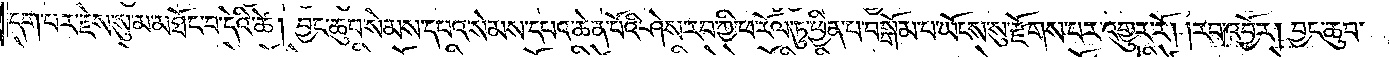དག་པར་རྗེས་སུ་མ་མཐོང་བ་དེའི་ཚེ། བྱང་ཆུབ་སེམས་དཔའ་སེམས་དཔའ་ཆེན་པོའི་ཤེས་རབ་ཀྱི་ཕ་རོལ་ཏུ་ཕྱིན་པ་བསྒོམ་པ་ཡོངས་སུ་རྫོགས་པར་འགྱུར་རོ། །རབ་འབྱོར། བྱང་ཆུབ་
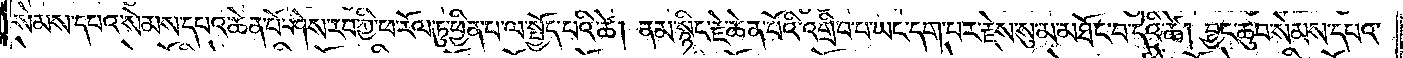སེམས་དཔའ་སེམས་དཔའ་ཆེན་པོ་ཤེས་རབ་ཀྱི་ཕ་རོལ་ཏུ་ཕྱིན་པ་ལ་སྤྱོད་པའི་ཚེ། ནམ་སྙིང་རྗེ་ཆེན་པོའི་འགྲིབ་པ་ཡང་དག་པར་རྗེས་སུ་མ་མཐོང་བ་དེའི་ཚེ། བྱང་ཆུབ་སེམས་དཔའ་
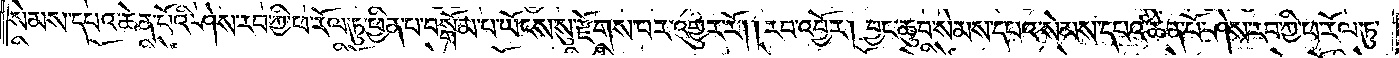སེམས་དཔའ་ཆེན་པོའི་ཤེས་རབ་ཀྱི་ཕ་རོལ་ཏུ་ཕྱིན་པ་བསྒོམ་པ་ཡོངས་སུ་རྫོགས་པར་འགྱུར་རོ། །རབ་འབྱོར། བྱང་ཆུབ་སེམས་དཔའ་སེམས་དཔའ་ཆེན་པོ་ཤེས་རབ་ཀྱི་ཕ་རོལ་ཏུ་
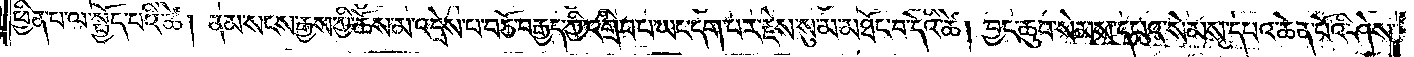ཕྱིན་པ་ལ་སྤྱོད་པའི་ཚེ། ནམ་སངས་རྒྱས་ཀྱི་ཆོས་མ་འདྲེས་པ་བཅོ་བརྒྱད་ཀྱི་འགྲིབ་པ་ཡང་དག་པར་རྗེས་སུ་མ་མཐོང་བ་དེའི་ཚེ། བྱང་ཆུབ་སེམས་དཔའ་སེམས་དཔའ་ཆེན་པོའི་ཤེས་
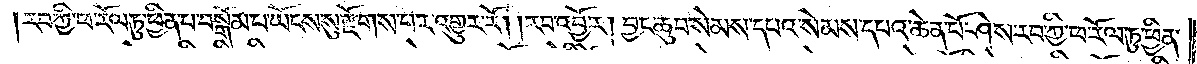རབ་ཀྱི་ཕ་རོལ་ཏུ་ཕྱིན་པ་བསྒོམ་པ་ཡོངས་སུ་རྫོགས་པར་འགྱུར་རོ། །རབ་འབྱོར། བྱང་ཆུབ་སེམས་དཔའ་སེམས་དཔའ་ཆེན་པོ་ཤེས་རབ་ཀྱི་ཕ་རོལ་ཏུ་ཕྱིན་
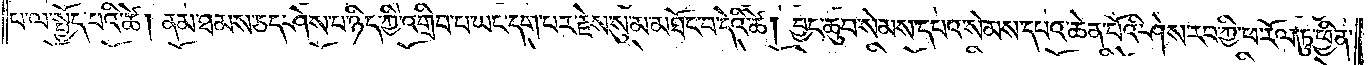པ་ལ་སྤྱོད་པའི་ཚེ། ནམ་ཐམས་ཅད་ཤེས་པ་ཉིད་ཀྱི་འགྲིབ་པ་ཡང་དག་པར་རྗེས་སུ་མ་མཐོང་བ་དེའི་ཚེ། བྱང་ཆུབ་སེམས་དཔའ་སེམས་དཔའ་ཆེན་པོའི་ཤེས་རབ་ཀྱི་ཕ་རོལ་ཏུ་ཕྱིན་
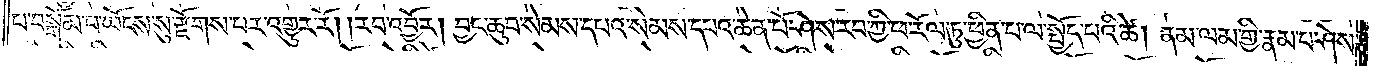པ་བསྒོམ་པ་ཡོངས་སུ་རྫོགས་པར་འགྱུར་རོ། །རབ་འབྱོར། བྱང་ཆུབ་སེམས་དཔའ་སེམས་དཔའ་ཆེན་པོ་ཤེས་རབ་ཀྱི་ཕ་རོལ་ཏུ་ཕྱིན་པ་ལ་སྤྱོད་པའི་ཚེ། ནམ་ལམ་གྱི་རྣམ་པ་ཤེས་
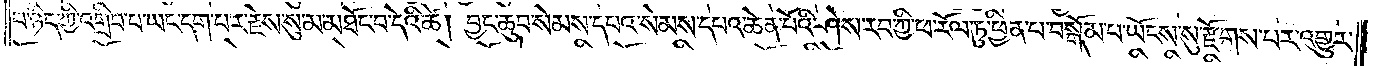པ་ཉིད་ཀྱི་འགྲིབ་པ་ཡང་དག་པར་རྗེས་སུ་མ་མཐོང་བ་དེའི་ཚེ། བྱང་ཆུབ་སེམས་དཔའ་སེམས་དཔའ་ཆེན་པོའི་ཤེས་རབ་ཀྱི་ཕ་རོལ་ཏུ་ཕྱིན་པ་བསྒོམ་པ་ཡོངས་སུ་རྫོགས་པར་འགྱུར་
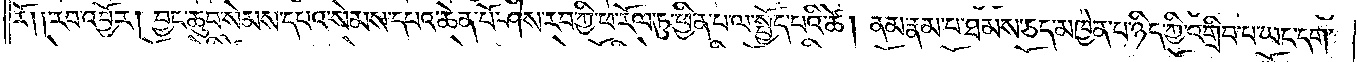རོ། །རབ་འབྱོར། བྱང་ཆུབ་སེམས་དཔའ་སེམས་དཔའ་ཆེན་པོ་ཤེས་རབ་ཀྱི་ཕ་རོལ་ཏུ་ཕྱིན་པ་ལ་སྤྱོད་པའི་ཚེ། ནམ་རྣམ་པ་ཐམས་ཅད་མཁྱེན་པ་ཉིད་ཀྱི་འགྲིབ་པ་ཡང་དག་
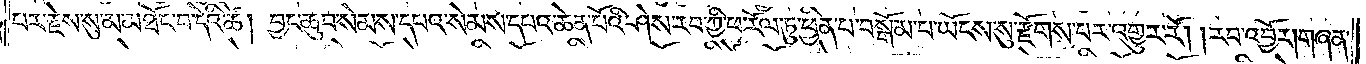པར་རྗེས་སུ་མ་མཐོང་བ་དེའི་ཚེ། བྱང་ཆུབ་སེམས་དཔའ་སེམས་དཔའ་ཆེན་པོའི་ཤེས་རབ་ཀྱི་ཕ་རོལ་ཏུ་ཕྱིན་པ་བསྒོམ་པ་ཡོངས་སུ་རྫོགས་པར་འགྱུར་རོ། །རབ་འབྱོར། གཞན་
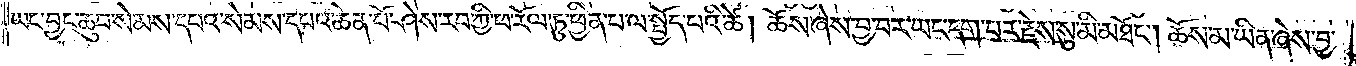ཡང་བྱང་ཆུབ་སེམས་དཔའ་སེམས་དཔའ་ཆེན་པོ་ཤེས་རབ་ཀྱི་ཕ་རོལ་ཏུ་ཕྱིན་པ་ལ་སྤྱོད་པའི་ཚེ། ཆོས་ཞེས་བྱ་བར་ཡང་དག་པར་རྗེས་སུ་མི་མཐོང༌། ཆོས་མ་ཡིན་ཞེས་བྱ་
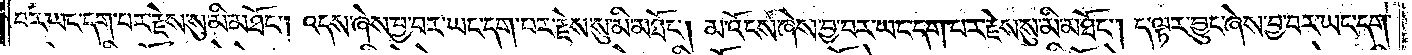བར་ཡང་དག་པར་རྗེས་སུ་མི་མཐོང༌། འདས་ཞེས་བྱ་བར་ཡང་དག་པར་རྗེས་སུ་མི་མཐོང༌། མ་འོངས་ཞེས་བྱ་བར་ཡང་དག་པར་རྗེས་སུ་མི་མཐོང༌། ད་ལྟར་བྱུང་ཞེས་བྱ་བར་ཡང་དག་
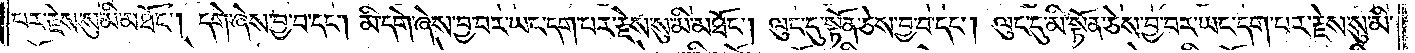པར་རྗེས་སུ་མི་མཐོང༌། དགེ་ཞེས་བྱ་བ་དང༌། མི་དགེ་ཞེས་བྱ་བར་ཡང་དག་པར་རྗེས་སུ་མི་མཐོང༌། ལུང་དུ་སྟོན་ཅེས་བྱ་བ་དང༌། ལུང་དུ་མི་སྟོན་ཅེས་བྱ་བར་ཡང་དག་པར་རྗེས་སུ་མི་
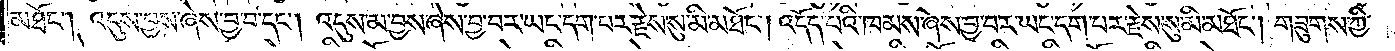མཐོང༌། འདུས་བྱས་ཞེས་བྱ་བ་དང༌། འདུས་མ་བྱས་ཞེས་བྱ་བར་ཡང་དག་པར་རྗེས་སུ་མི་མཐོང༌། འདོད་པའི་ཁམས་ཞེས་བྱ་བར་ཡང་དག་པར་རྗེས་སུ་མི་མཐོང༌། གཟུགས་ཀྱི་
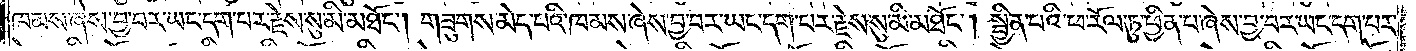ཁམས་ཞེས་བྱ་བར་ཡང་དག་པར་རྗེས་སུ་མི་མཐོང༌། གཟུགས་མེད་པའི་ཁམས་ཞེས་བྱ་བར་ཡང་དག་པར་རྗེས་སུ་མི་མཐོང༌། སྦྱིན་པའི་ཕ་རོལ་ཏུ་ཕྱིན་པ་ཞེས་བྱ་བར་ཡང་དག་པར་
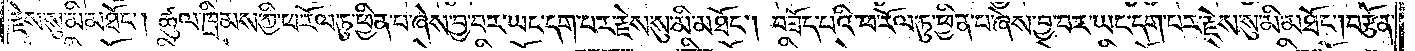རྗེས་སུ་མི་མཐོང༌། ཚུལ་ཁྲིམས་ཀྱི་ཕ་རོལ་ཏུ་ཕྱིན་པ་ཞེས་བྱ་བར་ཡང་དག་པར་རྗེས་སུ་མི་མཐོང༌། བཟོད་པའི་ཕ་རོལ་ཏུ་ཕྱིན་པ་ཞེས་བྱ་བར་ཡང་དག་པར་རྗེས་སུ་མི་མཐོང༌། བརྩོན་
